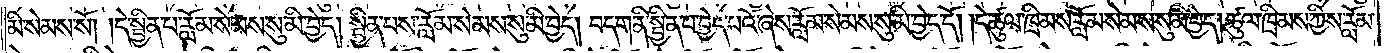མི་སེམས་སོ། །དེ་སྦྱིན་པ་རློམ་སེམས་སུ་མི་བྱེད། སྦྱིན་པས་རློམ་སེམས་སུ་མི་བྱེད། བདག་ནི་སྦྱིན་པ་བྱེད་པའོ་ཞེས་རློམ་སེམས་སུ་མི་བྱེད་དོ། །དེ་ཚུལ་ཁྲིམས་རློམ་སེམས་སུ་མི་བྱེད། ཚུལ་ཁྲིམས་ཀྱིས་རློམ་
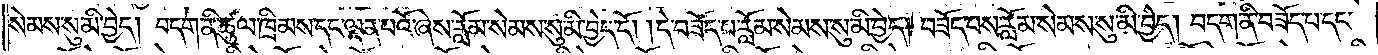སེམས་སུ་མི་བྱེད། བདག་ནི་ཚུལ་ཁྲིམས་དང་ལྡན་པའོ་ཞེས་རློམ་སེམས་སུ་མི་བྱེད་དོ། །དེ་བཟོད་པ་རློམ་སེམས་སུ་མི་བྱེད། བཟོད་པས་རློམ་སེམས་སུ་མི་བྱེད། བདག་ནི་བཟོད་པ་དང་
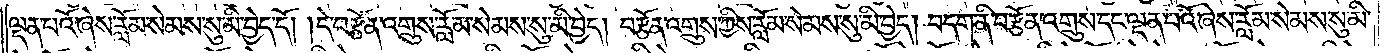ལྡན་པའོ་ཞེས་རློམ་སེམས་སུ་མི་བྱེད་དོ། །དེ་བརྩོན་འགྲུས་རློམ་སེམས་སུ་མི་བྱེད། བརྩོན་འགྲུས་ཀྱིས་རློམ་སེམས་སུ་མི་བྱེད། བདག་ནི་བརྩོན་འགྲུས་དང་ལྡན་པའོ་ཞེས་རློམ་སེམས་སུ་མི་
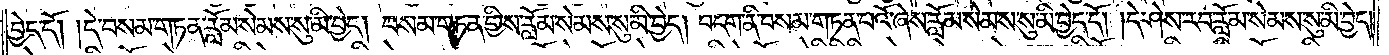བྱེད་དོ། །དེ་བསམ་གཏན་རློམ་སེམས་སུ་མི་བྱེད། བསམ་གཏན་གྱིས་རློམ་སེམས་སུ་མི་བྱེད། བདག་ནི་བསམ་གཏན་པའོ་ཞེས་རློམ་སེམས་སུ་མི་བྱེད་དོ། །དེ་ཤེས་རབ་རློམ་སེམས་སུ་མི་བྱེད།
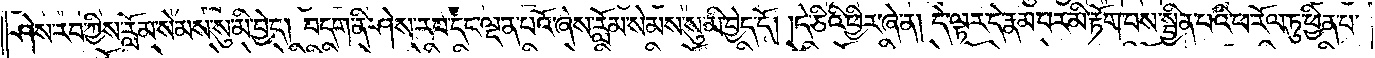ཤེས་རབ་ཀྱིས་རློམ་སེམས་སུ་མི་བྱེད། བདག་ནི་ཤེས་རབ་དང་ལྡན་པའོ་ཞེས་རློམ་སེམས་སུ་མི་བྱེད་དོ། །དེ་ཅིའི་ཕྱིར་ཞེ་ན། དེ་ལྟར་དེ་རྣམ་པར་མི་རྟོག་པས་སྦྱིན་པའི་ཕ་རོལ་ཏུ་ཕྱིན་པ་
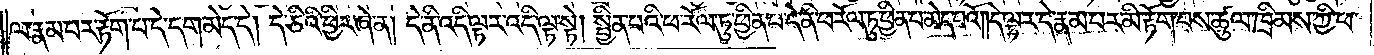ལ་རྣམ་པར་རྟོག་པ་དེ་དག་མེད་དེ། དེ་ཅིའི་ཕྱིར་ཞེ་ན། དེ་ནི་འདི་ལྟར་འདི་ལྟ་སྟེ། སྦྱིན་པའི་ཕ་རོལ་ཏུ་ཕྱིན་པ་དེ་ནི་ཕ་རོལ་ཏུ་ཕྱིན་པ་མེད་པའོ། །དེ་ལྟར་དེ་རྣམ་པར་མི་རྟོག་པས་ཚུལ་ཁྲིམས་ཀྱི་ཕ་
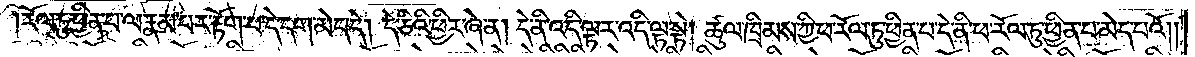རོལ་ཏུ་ཕྱིན་པ་ལ་རྣམ་པར་རྟོག་པ་དེ་དག་མེད་དེ། དེ་ཅིའི་ཕྱིར་ཞེ་ན། དེ་ནི་འདི་ལྟར་འདི་ལྟ་སྟེ། ཚུལ་ཁྲིམས་ཀྱི་ཕ་རོལ་ཏུ་ཕྱིན་པ་དེ་ནི་ཕ་རོལ་ཏུ་ཕྱིན་པ་མེད་པའོ། །
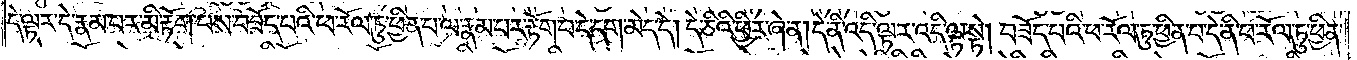དེ་ལྟར་དེ་རྣམ་པར་མི་རྟོག་པས་བཟོད་པའི་ཕ་རོལ་ཏུ་ཕྱིན་པ་ལ་རྣམ་པར་རྟོག་པ་དེ་དག་མེད་དེ། དེ་ཅིའི་ཕྱིར་ཞེ་ན། དེ་ནི་འདི་ལྟར་འདི་ལྟ་སྟེ། བཟོད་པའི་ཕ་རོལ་ཏུ་ཕྱིན་པ་དེ་ནི་ཕ་རོལ་ཏུ་ཕྱིན་
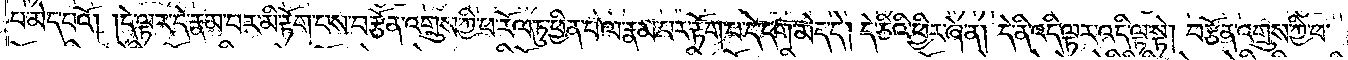པ་མེད་པའོ། །དེ་ལྟར་དེ་རྣམ་པར་མི་རྟོག་པས་བརྩོན་འགྲུས་ཀྱི་ཕ་རོལ་ཏུ་ཕྱིན་པ་ལ་རྣམ་པར་རྟོག་པ་དེ་དག་མེད་དེ། དེ་ཅིའི་ཕྱིར་ཞེ་ན། དེ་ནི་འདི་ལྟར་འདི་ལྟ་སྟེ། བརྩོན་འགྲུས་ཀྱི་ཕ་
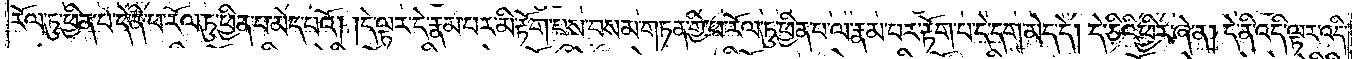རོལ་ཏུ་ཕྱིན་པ་དེ་ནི་ཕ་རོལ་ཏུ་ཕྱིན་པ་མེད་པའོ། །དེ་ལྟར་དེ་རྣམ་པར་མི་རྟོག་པས་བསམ་གཏན་གྱི་ཕ་རོལ་ཏུ་ཕྱིན་པ་ལ་རྣམ་པར་རྟོག་པ་དེ་དག་མེད་དེ། དེ་ཅིའི་ཕྱིར་ཞེ་ན། དེ་ནི་འདི་ལྟར་འདི་
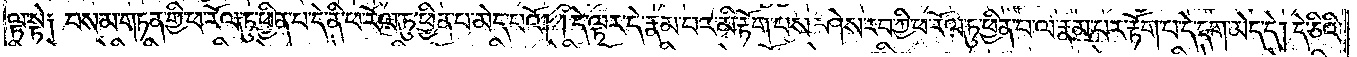ལྟ་སྟེ། བསམ་གཏན་གྱི་ཕ་རོལ་ཏུ་ཕྱིན་པ་དེ་ནི་ཕ་རོལ་ཏུ་ཕྱིན་པ་མེད་པའོ། །དེ་ལྟར་དེ་རྣམ་པར་མི་རྟོག་པས་ཤེས་རབ་ཀྱི་ཕ་རོལ་ཏུ་ཕྱིན་པ་ལ་རྣམ་པར་རྟོག་པ་དེ་དག་མེད་དེ། དེ་ཅིའི་
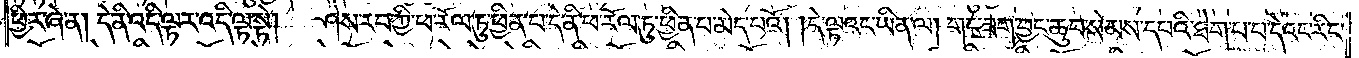ཕྱིར་ཞེ་ན། དེ་ནི་འདི་ལྟར་འདི་ལྟ་སྟེ། ཤེས་རབ་ཀྱི་ཕ་རོལ་ཏུ་ཕྱིན་པ་དེ་ནི་ཕ་རོལ་ཏུ་ཕྱིན་པ་མེད་པའོ། །དེ་ལྟའང་ཡིན་ལ། གང་ཟག་བྱང་ཆུབ་སེམས་དཔའི་ཐེག་པ་པ་དེའང་རིང་
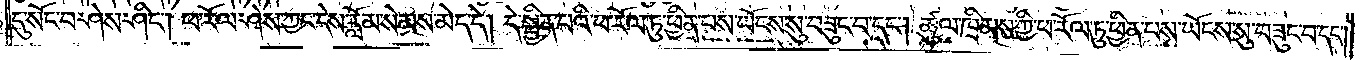དུ་སོང་བ་ཤེས་ཤིང༌། ཕ་རོལ་ཤེས་ཀྱང་དེས་རློམ་སེམས་མེད་དེ། དེ་སྦྱིན་པའི་ཕ་རོལ་ཏུ་ཕྱིན་པས་ཡོངས་སུ་བཟུང་བ་དང༌། ཚུལ་ཁྲིམས་ཀྱི་ཕ་རོལ་ཏུ་ཕྱིན་པས་ཡོངས་སུ་བཟུང་བ་དང༌།
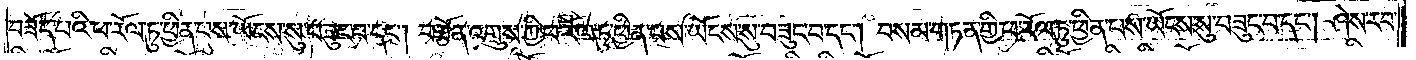བཟོད་པའི་ཕ་རོལ་ཏུ་ཕྱིན་པས་ཡོངས་སུ་བཟུང་བ་དང༌། བརྩོན་འགྲུས་ཀྱི་ཕ་རོལ་ཏུ་ཕྱིན་པས་ཡོངས་སུ་བཟུང་བ་དང༌། བསམ་གཏན་གྱི་ཕ་རོལ་ཏུ་ཕྱིན་པས་ཡོངས་སུ་བཟུང་བ་དང༌། ཤེས་རབ་
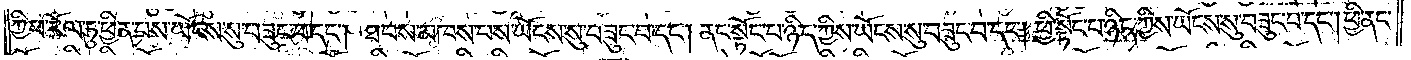ཀྱི་ཕ་རོལ་ཏུ་ཕྱིན་པས་ཡོངས་སུ་བཟུང་བ་དང༌། ཐབས་མཁས་པས་ཡོངས་སུ་བཟུང་བ་དང༌། ནང་སྟོང་པ་ཉིད་ཀྱིས་ཡོངས་སུ་བཟུང་བ་དང༌། ཕྱི་སྟོང་པ་ཉིད་ཀྱིས་ཡོངས་སུ་བཟུང་བ་དང༌། ཕྱི་ནང་
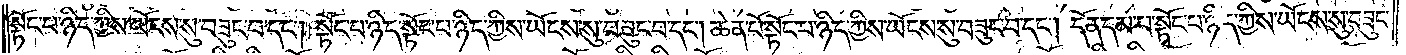སྟོང་པ་ཉིད་ཀྱིས་ཡོངས་སུ་བཟུང་བ་དང༌། སྟོང་པ་ཉིད་སྟོང་པ་ཉིད་ཀྱིས་ཡོངས་སུ་བཟུང་བ་དང༌། ཆེན་པོ་སྟོང་པ་ཉིད་ཀྱིས་ཡོངས་སུ་བཟུང་བ་དང༌། དོན་དམ་པ་སྟོང་པ་ཉིད་ཀྱིས་ཡོངས་སུ་བཟུང་
